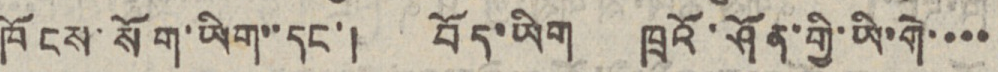ཁོངས་སོག་ཡིག་་དང་། བོད་ཡིག ཁྲའོ་ཤོན་གྱི་ཡི་གེ་་་་
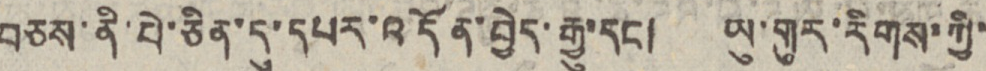བཅས་ནི་པེ་ཅིན་དུ་དཔར་འདོན་བྱེད་རྒྱུ་དང། ཡུ་གུར་རིགས་ཀྱི་
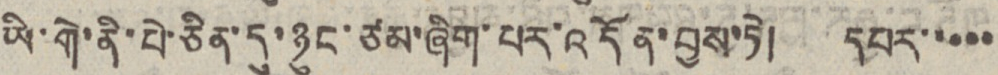ཡི་གེ་ནི་པེ་ཅིན་དུ་ཉུང་ཙམ་ཞིག་པར་འདོན་བྱས་ཏེ། དཔར་་་་་
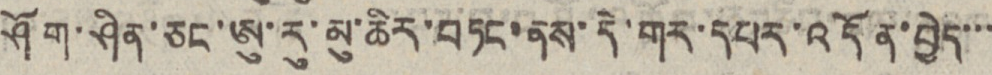ཤོག་ཤིན་ཅང་ཨུ་རུ་མུ་ཆིར་བཏང་ནས་དེ་གར་དཔར་འདོན་བྱེད་་་
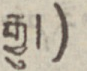རྒྱུ།)
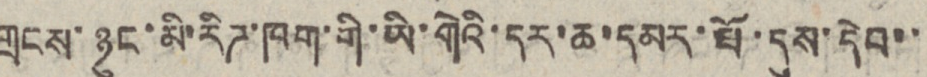གྲངས་ཉུང་མི་རིཊ་ཁག་གི་ཡི་གེའི་དར་ཆ་དམར་པོ་དུས་དེབ་་
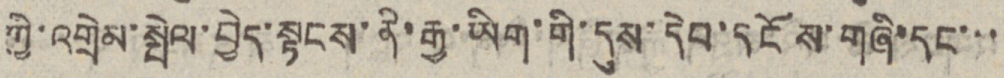ཀྱི་འགྲེམ་སྤེལ་བྱེད་སྟངས་ནི་རྒྱ་ཡིག་གི་དུས་དེབ་དངོས་གཞི་དང་་་
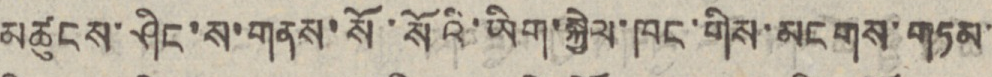མཚུངས་ཤིང་ས་གནས་སོ་སོའི་ཡིག་སྐྱེལ་ཁང་གིས་མངགས་གཏམ་
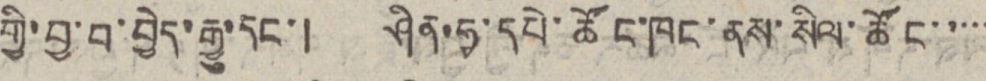གྱི་བྱ་བ་བྱེད་རྒྱུ་དང་། ཤིན་ཧྭ་དཔེ་ཚོང་ཁང་ནས་སིལ་ཚོང་་་་་
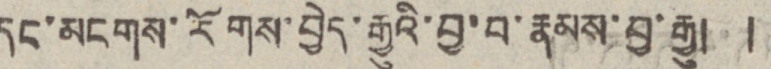དང་མངགས་རོགས་བྱེད་རྒྱུའི་བྱ་བ་རྣམས་བྱ་རྒྱུ། །
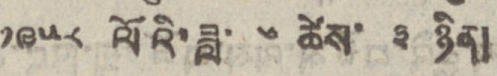༡༩༥༨ ལོའི་ཟླ་ ༦ ཚེས་ ༣ ཉིན།
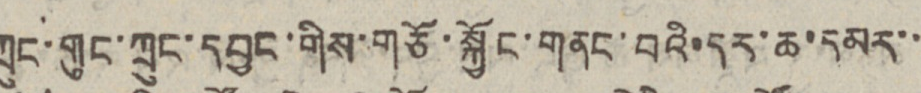ཀྲུང་གུང་ཀྲུང་དབྱང་གིས་གཙོ་སྐྱོང་གནང་བའི་དར་ཆ་དམར་་
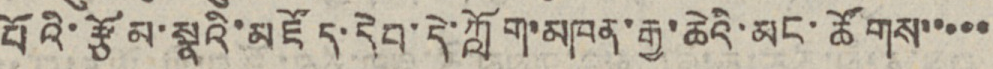པོའི་རྩོམ་སྣའི་མཛོད་དེབ་དེ་ཀློག་མཁན་རྒྱ་ཆེའི་མང་ཚོགས་་་་་
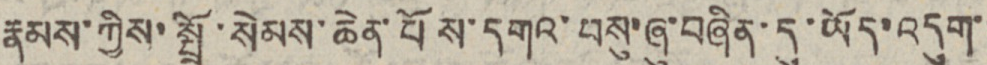རྣམས་ཀྱིས་སྤྲོ་སེམས་ཆེན་པོས་དགའ་བསུ་ཞུ་བཞིན་དུ་ཡོད་འདུག་་
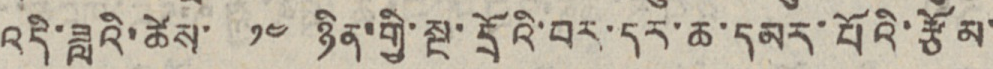འདི་ཟླའི་ཚེས་ ༡༤ ཉིན་གྱི་སྔ་དྲོའི་བར་དར་ཆ་དམར་པོའི་རྩོམ་
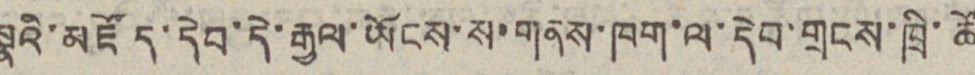སྣའི་མཛོད་དེབ་དེ་རྒྱལ་ཡོངས་ས་གནས་ཁག་ལ་དེབ་གྲངས་ཁྲི་ཚོ
